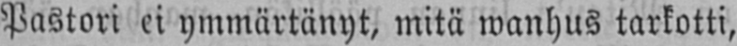Pastori ei ymmärtänyt, mitä wanhus karkotti,
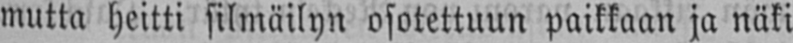mutta heitti silmäilyn osotettuun paikkaan ja näki
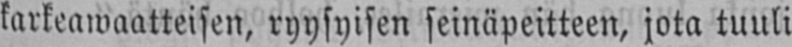karkeawaatteisen, ryysyisen seinäpeitteen, jota tuuli
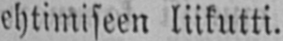ehtimiseen liikutti.
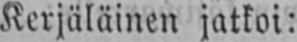Kerjäläinen jatkoi:
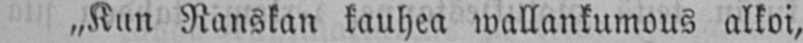„Kun Ranskan kauhea wallankumous alkoi,
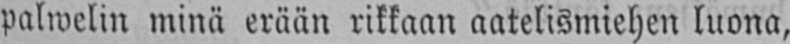palwelin minä erään rikkaan aatelismiehen luona,
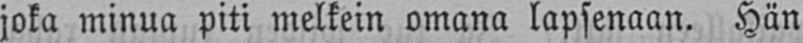joka minua piti melkein omana lapsenaan. Hän
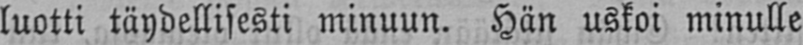luotti täydellisesti minuun. Hän uskoi minulle
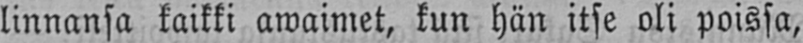linnansa kaikki awaimet, kun hän itse oli poissa,
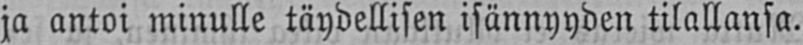ja antoi minulle täydellisen isännyyden tilallansa.
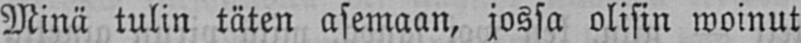Minä tulin täten asemaan, jossa olisin woinut
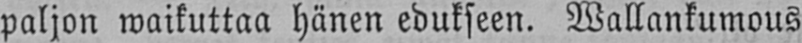paljon waikuttaa hänen edukseen. Wallankumous
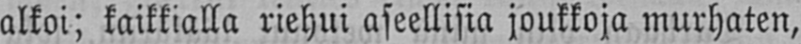alkoi; kaikkialla riehui aseellisia joukkoja murhaten,
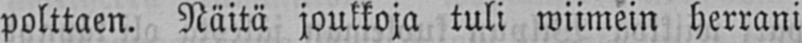polttaen. Näitä joukkoja tuli wiimein herrani
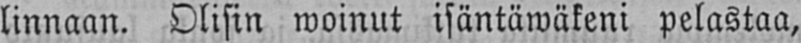linnaan. Olisin woinut isäntäwäkeni pelastaa,
